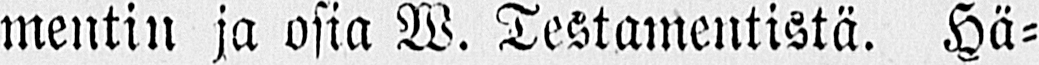mentin ja osia W. Testamentistä. Hä-
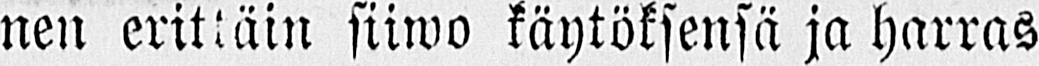nen erittäin siiwo käytöksensä ja harras
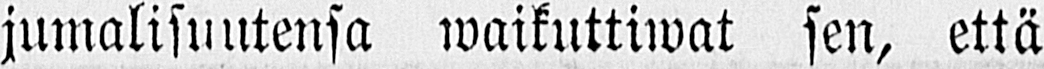jumalisuutensa waikuttiwat sen, että
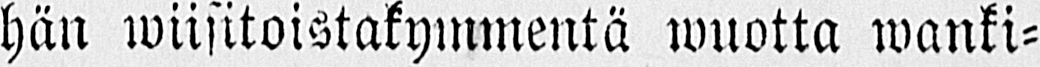hän wiisitoistakymmenta wuotta wanki-
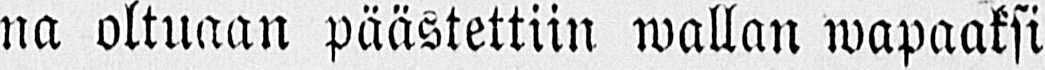na oltuaan päästettiin wallan wapaaksi
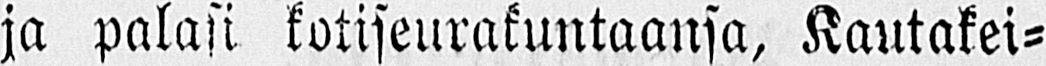ja palasi kotiseurakuntaansa, Kautakei-
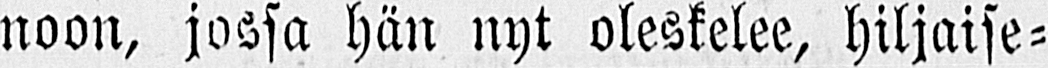noon, jossa hän nyt oleskelee, hiljaise-
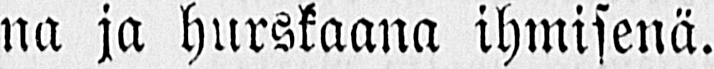na ja hurskaana ihmisenä.
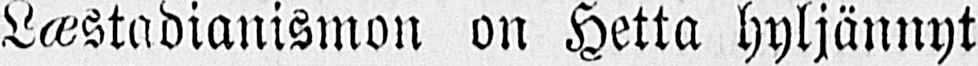Læstadianismon on Hetta hyljännyt
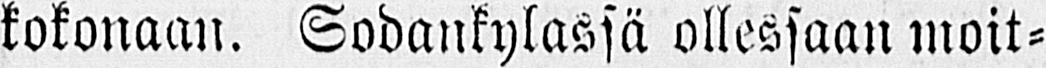kokonaan. Sodankylässä ollessaan moit-
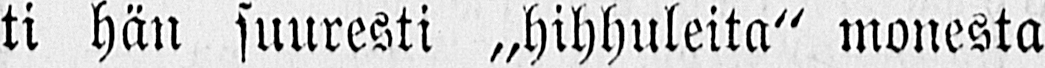ti hän suuresti „hihhuleita" monesta
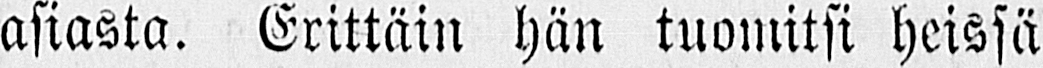asiasta. Erittäin hän tuomitsi heissä
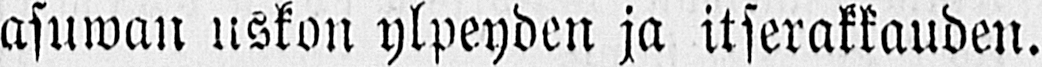asuwan uskon ylpeyden ja itserakkauden.
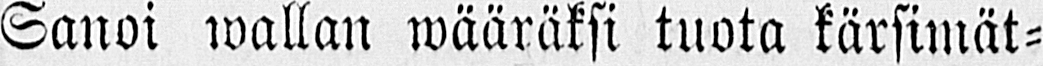Sanoi wallan wääräksi tuota kärsimät-
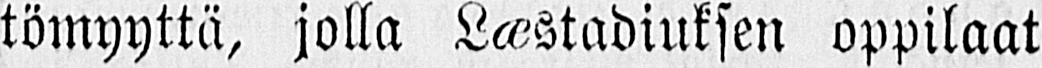tömyyttä, jolla Læstadiuksen oppilaat
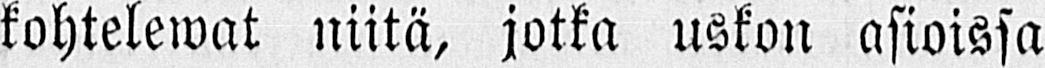kohtelewat niitä, jotka uskon asioissa
